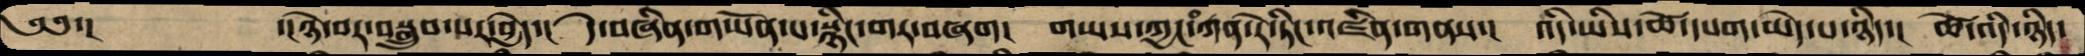༄༅་།   ་།ཉེ་བར་བསྒྲུབ་པར་བྱེད་། དེ་བཞིན་གཡོན་པ་སྙིང་གར་བཞག། གཡས་ཀྱང་ཀན་རེ་ཏིང་འཛིན་གནས་། འདི་ཡིས་ཚེ་དཔག་མེད་པ་ཉིད་། ཚེ་འདི་ཉིད་
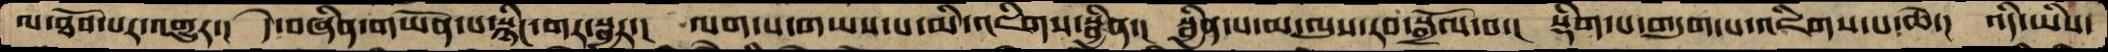ལ་ཐོབ་པར་འགྱུར་།  དེ་བཞིན་གཡོན་པ་སྙིང་གར་སྦྱར་།  ལག་པ་གཡས་པ་མི་འཇིགས་སྦྱིན་།  སྦྱིན་པ་མ་ལུས་རབ་སྒྲོལ་བ་།  སྡིག་པ་གདུག་པ་འཇིགས་པ་ཆེ་།  འདི་ཡིས་
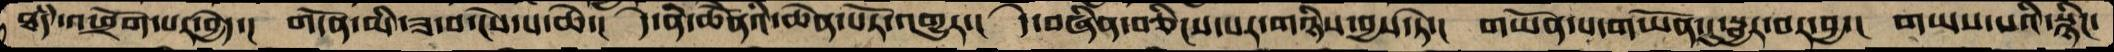ཐཾད་འཕྲོག་པར་བྱེད་།  གདོན་མི་ཟ་བ་ངེས་པ་ཆེ་།  དེ་ནི་ཆེནོའི་ཆེན་པོར་འགྱུར་།  དེ་བཞིན་བཅིངས་པར་གཉིས་བྱས་ཏེ་།  གཡོན་པ་གཡོན་དུ་སྦྱར་བར་བྱ་།  གཡས་པའིི་སྙིང་
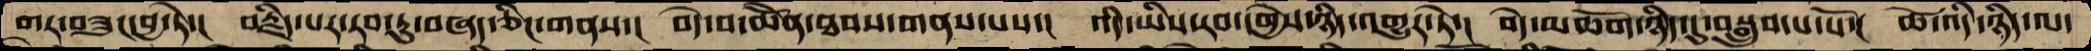གར་བཟུང་བྱ་ཏེ་།  བརྗིད་པར་རབ་ཏུ་བཞད་ཅིང་གནས་།  བདེ་བ་ཆོེན་ཐབས་གནས་པས་།  འདི་ཡིས་རབ་དགྱེས་ཉིད་འགྱུར་ཏེ་།  བདེ་མཆོག་ཉིད་དུ་བསྒྲུབ་པ་པོ་།  ཚེ་འདི་ཉིད་ལ་
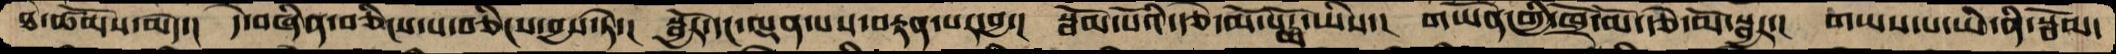ཐེ་ཚོམས་མེད་།  དེ་བཞིན་བཅིངས་པ་བཅིངས་བྱས་ཏེ་།  སྦྱོར་དང་ལྡན་པས་བརྟན་པར་བྱ་།  སྦོམ་པོའི་རྩེ་མོ་པདྨོ་ཡིས་།  གཡོན་གྱི་ཁྲོ་མོ་རྩེ་མོ་སྦྱར་།  གཡས་པ་ཡེ་ནི་སྦོམ་
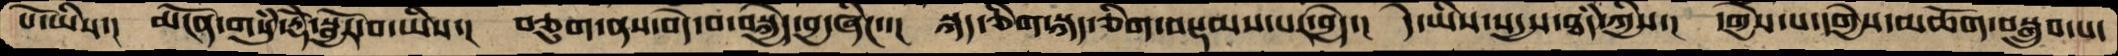པོ་ཡིས་།  མངོན་གསུཾ་རྡོེ་སྦྱོར་བ་ཡིས་།  བཅུག་ནས་བདེ་བ་བསྐྱེད་བྱ་ཞིང་་།  སྐད་ཅིག་སྐད་ཅིག་བསྡམས་པར་བྱེད་།  དེ་ཡིས་སདྱས་ཐཾད་ཀྱིས་།  དགྱེས་པ་དགྱེས་མཆོག་བསྒྲུབ་པ་
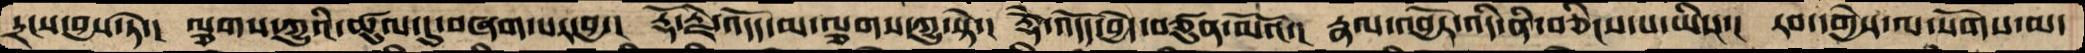དྲངས་བྱས་ཏེ་།  ལྕགས་ཀྱུའི་ཚུལ་དུ་བཞག་པར་བྱ་།  རྡོ་རྗེ་འདོད་ལ་ལྕགས་ཀྱུ་སྟེ་།  རྡོེ་འདོད་བྱེད་བཙུན་མོའོ་།  རྣལ་འབྱོར་འདི་ནི་བཅིངས་པ་ཡིས་།  རབ་དགྱེས་ལ་སོགས་མ་
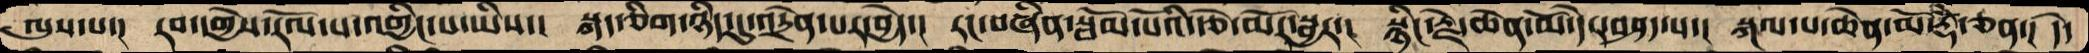ལུས་པ་།  རབ་དགྱེས་རོལ་པ་འགྱིང་པ་ཡིས་།  སྐད་ཅིག་ཉིད་དུ་འདྲེན་པར་བྱེད་།  རང་བཞིན་སྦོམ་པོའི་རྩེ་མོར་སྦྱར་།  སྙིང་རྗེ་ཆེན་མོ་དེར་བཤད་པ་།  སྐལ་པ་ཆེན་མོ་རྡོེ་ཅན་།  དེ་
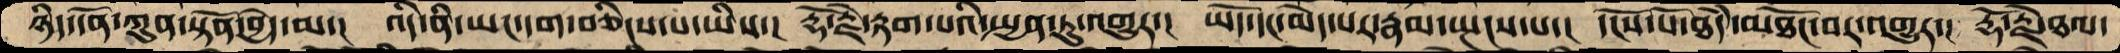ཉིད་དོན་ཀུན་སྟོན་བྱེད་མ་།  འདི་ནི་ཡང་དག་བཅིངས་པ་ཡིས་།  རྡོ་རྗེ་རྟག་པའི་སྤྱན་ཏུ་འགྱུར་།  ཡོད་དང་མེད་པར་རྣམ་སྤངས་པ་།  དངོས་པོ་ཐདཾ་མཐོང་བར་འགྱུར་།  རྡོ་རྗེ་ཐལ་
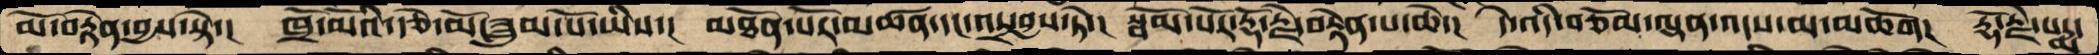མོ་བརྟེན་བྱས་སྟེ་།  ཁྲོ་མོའི་རྩེ་མོ་ཟླུམ་པོ་ཡིས་།  མཐོན་པོར་མཚན་དང་འདྲ་བྱས་ཏེ་།  སྦོམ་པོར་རྡོ་རྗེ་བརྟེན་པ་ཆེ་།  དེ་འདི་བཅོམ་ལྡན་འདས་མ་མཆོག།  རྡོ་རྗེ་པདྨ་
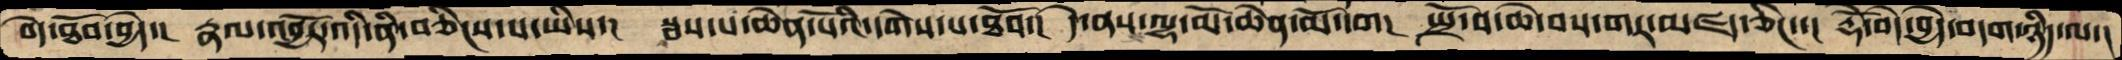བདེ་ཐོབ་བྱེད་།  རྣལ་འབྱོར་འདི་ནི་བཅིངས་པ་ཡིས་།  སྦས་པ་ཆེན་པོའི་དགེས་པ་ཐོབ་།  དེ་ནས་ལྷ་མོ་ཆེན་མོ་དག།  སྤྲོ་བ་ཆེ་བས་གར་མཛད་ཅིང་་།  རྡོེ་བདེ་བྱེད་བདག་ཉིད་ལ་།
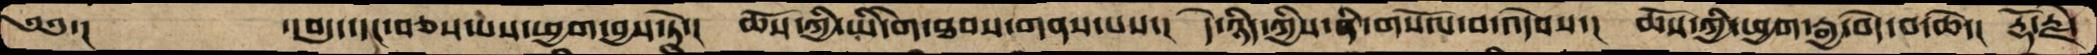༄༅་།     ་།བདུད་དང་བཅས་པས་ཕྱག་བྱས་ཏེ་།  ཆོས་ཀྱི་ཡི་གེ་ཐབས་གནས་པས་།  དེ་ཉིད་ཀྱིས་ནི་གསོལ་བ་འདེབས་།  ཆོས་ཀྱི་ཕྱག་རྒྱ་བདེ་བ་ཆེ་།  རྡོ་རྗེ་
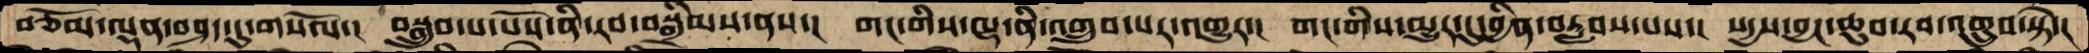བཅོམ་ལྡན་བཤད་དུ་གསོལ་།  བསྒྲུབ་པ་པོས་ནི་རབ་བསྒྲིམས་ནས་།  གང་གིས་ལྷ་ནི་འགྲུབ་པར་འགྱུར་།  གང་གིས་མྱུར་དུ་བྱིན་བརླབས་པས་།  སདྱས་བྱང་ཆུབ་རབ་འགྲུབ་སྟེ་།
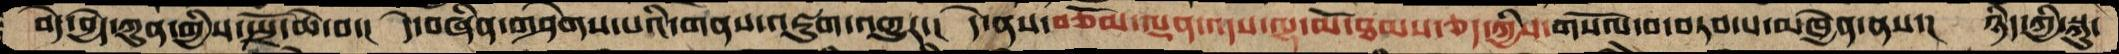བདེ་བྱེད་ཀུན་གྱིས་སྤྲོ་ཆེ་བ་།  དེ་བཞིན་གཤེགས་པའི་གནས་འཇུག་འགྱུར་།  དེ་ནས་བཅོམ་ལྡན་འདས་ལྷ་མོ་ཐམས་ཅད་ཀྱིས་གསོལ་བ་བཏབ་པ་མཁྱེན་ནས་།  ཉིད་ཀྱི་སྐུ་
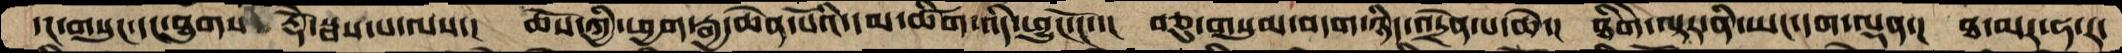དང་གསུང་དང་ཐུགས་རྡོེ་སྦས་པ་ལས་། ཆོས་ཀྱི་ཕྱག་རྒྱ་ཆེན་པོའི་དམ་ཚིག་འདི་ཕྱུང་ངོ་་།  བཅུ་གསུམ་བདག་ཉིད་འདྲེན་པ་ཆེ་།  ཐིགེ་ལྟར་ནི་ཡང་དག་ལྡན་། ཐ་མར་ཧ་ར་
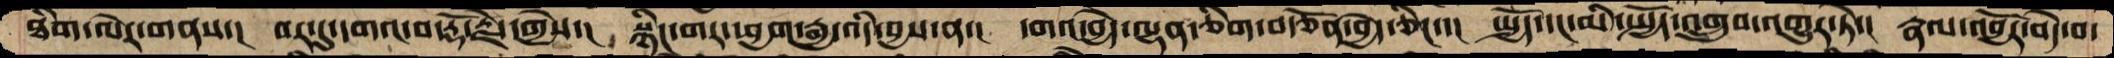ཐིག་ལེར་གནས་།  བར་དུ་དགའ་བ་རྡོ་རྗེ་དགྱེས་།  སྙིང་གར་ཕྱག་རྒྱ་འདི་བྱས་ན་།  དགའ་བྱེད་ལྷན་ཅིག་བརྩོན་བྱེད་ཅིངད་།  སྤྱོད་དང་མི་སྤྱོད་འགྲུབ་འགྱུར་ཏེ་།  རྣལ་འབྱོར་བདེ་བ་
